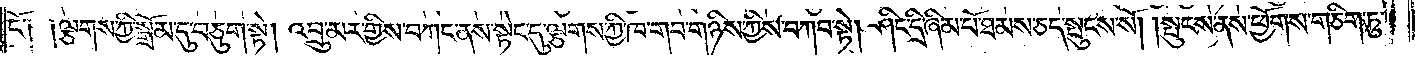ངོ༌༑ །ལྕགས་ཀྱི་སྒྲོམ་དུ་བཅུག་སྟེ། འབྲུ་མར་གྱིས་བཀང་ནས་སྟེང་དུ་ལྕགས་ཀྱི་ཁ་གབ་གཉིས་ཀྱིས་བཀབ་སྟེ། ཤིང་དྲི་ཞིམ་པོ་ཐམས་ཅད་སྤུངས་སོ། །སྤུངས་ནས་ཕྱོགས་གཅིག་ཏུ་
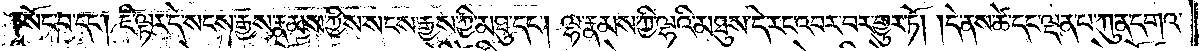།སོང་བ་དང༌། ཇི་ལྟར་དེ་སངས་རྒྱས་རྣམས་ཀྱིས་སངས་རྒྱས་ཀྱི་མཐུ་དང༌། ལྷ་རྣམས་ཀྱི་ལྷའི་མཐུས་དེ་རང་འབར་བར་གྱུར་ཏོ། །དེ་ནས་ཚེ་དང་ལྡན་པ་ཀུན་དགའ་
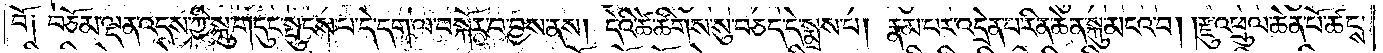བོ༑ །བཅོམ་ལྡན་འདས་ཀྱི་སྐུ་གདུང་སྤུངས་པ་དེ་དག་ལ་བསྐོར་བ་བྱས་ནས། དེའི་ཚེ་ཚིགས་སུ་བཅད་དེ་སྨྲས་པ། རྣམ་པར་འདྲེན་པ་རིན་ཆེན་སྐུ་མངའ་བ། །རྫུ་འཕྲུལ་ཆེན་པོ་ཚངས་
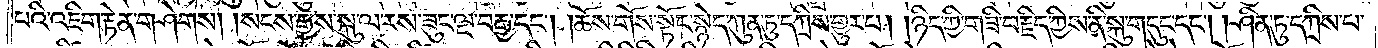པའི་འཇིག་རྟེན་གཤེགས། །སངས་རྒྱས་སྐུ་ལ་རས་ཟུང་ལྔ་བརྒྱ་དང༌། །ཆོས་གོས་སྟོང་སྙེད་ཀུན་ཏུ་དཀྲིས་གྱུར་པ། །ཉིད་ཀྱི་གཟི་བརྗིད་ཀྱིས་ནི་སྐུ་གདུང་དང༌། །ཤིན་ཏུ་དཀྲིས་པ་
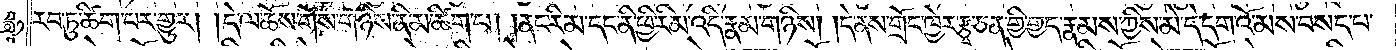རབ་ཏུ་ཚིག་པར་གྱུར། །དེ་ལ་ཆོས་གོས་གཉིས་ནི་མ་ཚིག་པ། །ནང་རིམ་དང་ནི་ཕྱི་རིམ་འདི་རྣམ་གཉིས། །དེ་ནས་གྲོང་ཁྱེར་རྩྭ་ཅན་གྱི་གྱད་རྣམས་ཀྱིས་མེ་དེ་དག་འོ་མས་བསད་པ་
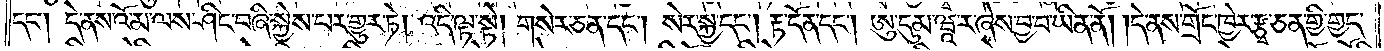དང༌། དེ་ནས་འོ་མ་ལས་ཤིང་བཞི་སྐྱེས་པར་གྱུར་ཏེ། འདི་ལྟ་སྟེ། གསེར་ཅན་དང༌། སེར་སྐྱ་དང༌། རྟ་དོན་དང༌། ཨུ་དུམ་ཝཱ་ར་ཞེས་བྱ་བ་ཡིན་ནོ། །དེ་ནས་གྲོང་ཁྱེར་རྩྭ་ཅན་གྱི་གྱད་
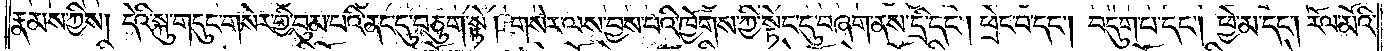རྣམས་ཀྱིས། དེའི་སྐུ་གདུང་གསེར་གྱི་བུམ་པའི་ནང་དུ་བཅུག་སྟེ། གསེར་ལས་བྱས་པའི་ཁྱོགས་ཀྱི་སྟེང་དུ་བཞག་ནས་དྲི་དང༌། ཕྲེང་བ་དང༌། བདུག་པ་དང༌། ཕྱེ་མ་དང༌། རོལ་མོའི་
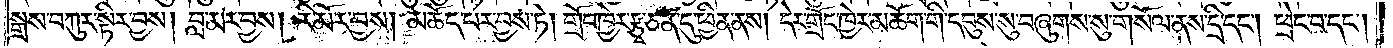སྒྲས་བཀུར་སྟིར་བྱས། བླ་མར་བྱས། རི་མོར་བྱས། མཆོད་པར་བྱས་ཏེ། གྲོང་ཁྱེར་རྩྭ་ཅན་དུ་ཕྱིན་ནས། དེར་གྲོང་ཁྱེར་མཆོག་གི་དབུས་སུ་བཞུགས་སུ་གསོལ་ནས་དྲི་དང༌། ཕྲེང་བ་དང༌།
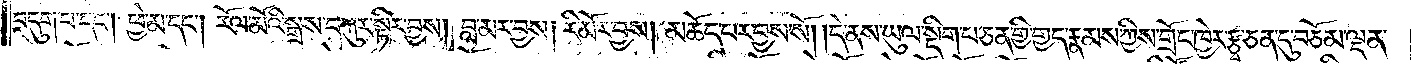བདུག་པ་དང༌། ཕྱེ་མ་དང༌། རོལ་མོའི་སྒྲས་བཀུར་སྟིར་བྱས། བླ་མར་བྱས། རི་མོར་བྱས། མཆོད་པར་བྱས་སོ། །དེ་ནས་ཡུལ་སྡིག་པ་ཅན་གྱི་གྱད་རྣམས་ཀྱིས་གྲོང་ཁྱེར་རྩྭ་ཅན་དུ་བཅོམ་ལྡན་
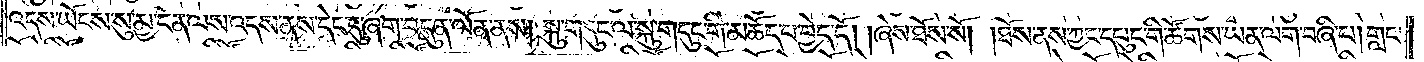འདས་ཡོངས་སུ་མྱ་ངན་ལས་འདས་ནས་དེང་དུ་ཞག་བདུན་ལོན་ནས། སྐུ་གདུང་ལ་སྐུ་གདུང་གི་མཆོད་པ་བྱེད་དོ། །ཞེས་ཐོས་སོ། །ཐོས་ནས་ཀྱང་དཔུང་གི་ཚོགས་ཡན་ལག་བཞི་པ། གླང་
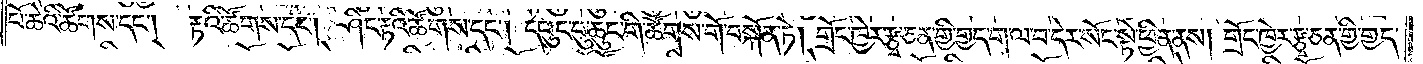པོ་ཆེའི་ཚོགས་དང༌། རྟའི་ཚོགས་དང༌། ཤིང་རྟའི་ཚོགས་དང༌། དཔུང་བུ་ཆུང་གི་ཚོགས་གོ་བསྐོན་ཏེ། གྲོང་ཁྱེར་རྩྭ་ཅན་གྱི་གྱད་ག་ལ་བ་དེར་སོང་སྟེ་ཕྱིན་ནས། གྲོང་ཁྱེར་རྩྭ་ཅན་གྱི་གྱད་
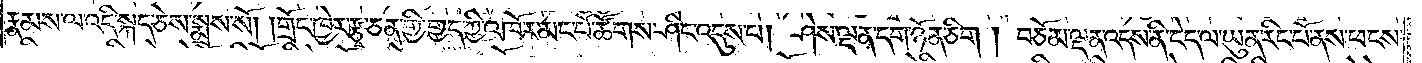རྣམས་ལ་འདི་སྐད་ཅེས་སྨྲས་སོ། །གྲོང་ཁྱེར་རྩྭ་ཅན་གྱི་གྱད་ཀྱི་འཁོར་མང་པོ་ཚོགས་ཤིང་འདུས་པ། ཤེས་ལྡན་དག་ཉོན་ཅིག །བཅོམ་ལྡན་འདས་ནི་ངེད་ལ་ཡུན་རིང་པོ་ནས་ཕངས་
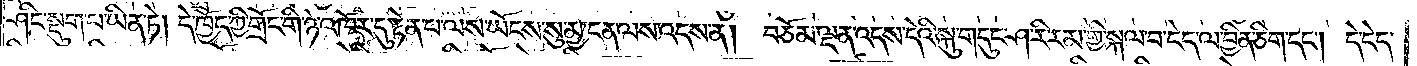ཤིང་སྡུག་པ་ཡིན་ཏེ། དེ་ཁྱོད་ཀྱི་གྲོང་གི་ཉེ་འཁོར་དུ་རྟེན་པ་ལས་ཡོངས་སུ་མྱ་ངན་ལས་འདས་ན། བཅོམ་ལྡན་འདས་དེའི་སྐུ་གདུང་ཤ་རི་རམ་གྱི་སྐལ་བ་ངེད་ལ་བྱིན་ཅིག་དང༌། དེ་ངེད་
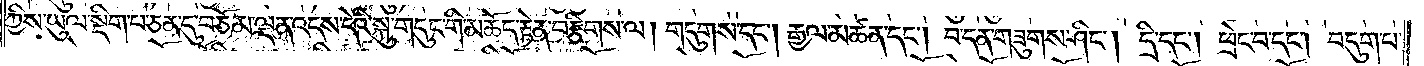ཀྱིས་ཡུལ་སྡིག་པ་ཅན་དུ་བཅོམ་ལྡན་འདས་དེའི་སྐུ་གདུང་གི་མཆོད་རྟེན་བརྩིགས་ལ། གདུགས་དང༌། རྒྱལ་མཚན་དང༌། བ་དན་གཟུགས་ཤིང༌། དྲི་དང༌། ཕྲེང་བ་དང༌། བདུག་པ་
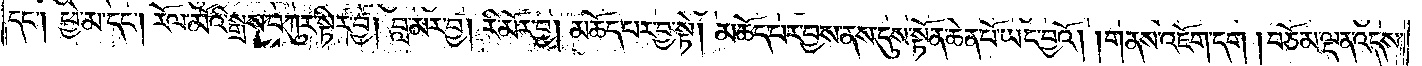དང༌། ཕྱེ་མ་དང༌། རོལ་མོའི་སྒྲས་བཀུར་སྟིར་བྱ། བླ་མར་བྱ། རི་མོར་བྱ། མཆོད་པར་བྱ་སྟེ། མཆོད་པར་བྱས་ནས་དུས་སྟོན་ཆེན་པོ་ཡང་བྱའོ། །གནས་འཇོག་དག །བཅོམ་ལྡན་འདས་
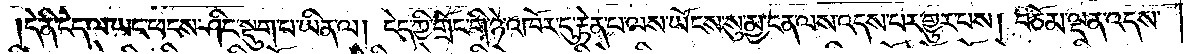།དེ་ནི་ངེད་ལ་ཡང་ཕངས་ཤིང་སྡུག་པ་ཡིན་ལ། ངེད་ཀྱི་གྲོང་གི་ཉེ་འཁོར་དུ་རྟེན་པ་ལས་ཡོངས་སུ་མྱ་ངན་ལས་འདས་པར་གྱུར་པས། བཅོམ་ལྡན་འདས་
